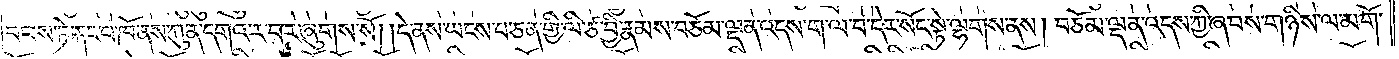བབས་ཏེ་རྐང་པ་ཁོ་ནས་ཀུན་དགའ་ར་བར་ཞུགས་སོ། །དེ་ནས་ཡངས་པ་ཅན་གྱི་ལི་ཙ་བྱི་རྣམས་བཅོམ་ལྡན་འདས་ག་ལ་བ་དེར་སོང་སྟེ་ལྷགས་ནས། བཅོམ་ལྡན་འདས་ཀྱི་ཞབས་གཉིས་ལ་མགོ་
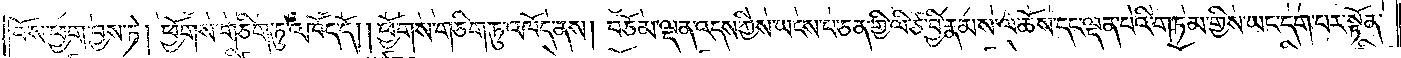བོས་ཕྱག་བྱས་ཏེ། ཕྱོགས་གཅིག་ཏུ་འཁོད་དོ། །ཕྱོགས་གཅིག་ཏུ་འཁོད་ནས། བཅོམ་ལྡན་འདས་ཀྱིས་ཡངས་པ་ཅན་གྱི་ལི་ཙ་བྱི་རྣམས་ལ་ཆོས་དང་ལྡན་པའི་གཏམ་གྱིས་ཡང་དག་པར་སྟོན་
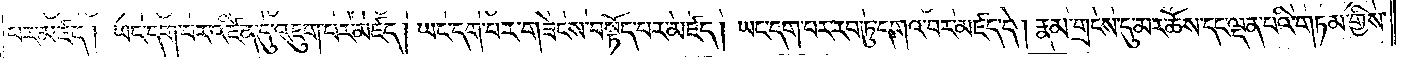པར་མཛད། ཡང་དག་པར་འཛིན་དུ་འཇུག་པར་མཛད། ཡང་དག་པར་གཟེངས་བསྟོད་པར་མཛད། ཡང་དག་པར་རབ་ཏུ་དགའ་བར་མཛད་དེ། རྣམ་གྲངས་དུ་མར་ཆོས་དང་ལྡན་པའི་གཏམ་གྱིས་
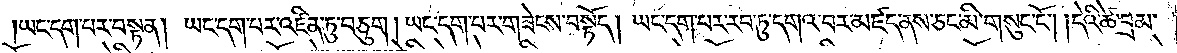ཡང་དག་པར་བསྟན། ཡང་དག་པར་འཛིན་ཏུ་བཅུག །ཡང་དག་པར་གཟེངས་བསྟོད། ཡང་དག་པར་རབ་ཏུ་དགའ་བར་མཛད་ནས་ཅང་མི་གསུང་ངོ༌། །དེའི་ཚེ་བྲམ་
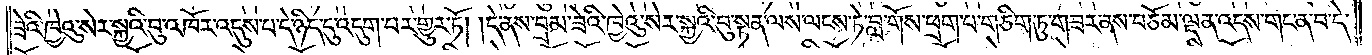ཟེའི་ཁྱེའུ་སེར་སྐྱའི་བུ་འཁོར་འདུས་པ་དེ་ཉིད་དུ་འདུག་པར་གྱུར་ཏོ། །དེ་ནས་བྲམ་ཟེའི་ཁྱེའུ་སེར་སྐྱའི་བུ་སྟན་ལས་ལངས་ཏེ་བླ་གོས་ཕྲག་པ་གཅིག་ཏུ་གཟར་ནས་བཅོམ་ལྡན་འདས་གང་ན་བ་དེ་
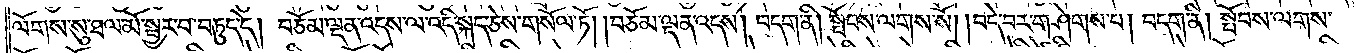ལོགས་སུ་ཐལ་མོ་སྦྱར་བ་བཏུད་དེ། བཅོམ་ལྡན་འདས་ལ་འདི་སྐད་ཅེས་གསོལ་ཏོ། །བཅོམ་ལྡན་འདས། བདག་ནི། སྤོབས་ལགས་སོ། །བདེ་བར་གཤེགས་པ། བདག་ནི། སྤོབས་ལགས་
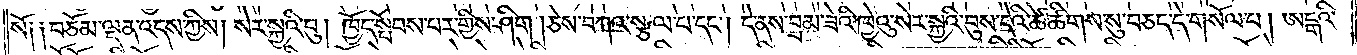སོ༑ ༑བཅོམ་ལྡན་འདས་ཀྱིས། སེར་སྐྱའི་བུ། ཁྱོད་སྤོབས་པར་གྱིས་ཤིག །ཅེས་བཀའ་སྩལ་པ་དང༌། དེ་ནས་བྲམ་ཟེའི་ཁྱེའུ་སེར་སྐྱའི་བུས་དེའི་ཚེ་ཚིགས་སུ་བཅད་དེ་གསོལ་པ། ཨངྒའི་
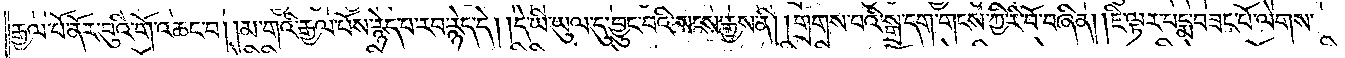རྒྱལ་པོ་ནོར་བུའི་གོ་འཆང་བ། །མ་གའི་རྒྱལ་པོས་རྙེད་པ་རབ་རྙེད་དེ། །དེ་ཡི་ཡུལ་དུ་བྱུང་བའི་སངས་རྒྱས་ནི། །གྲགས་པའི་སྒྲ་དག་གངས་ཀྱི་རི་བོ་བཞིན། །ཇི་ལྟར་པདྨ་བཟང་པོ་ལེགས་
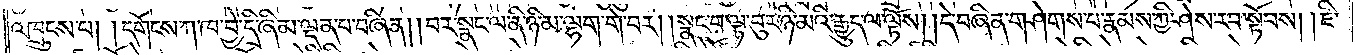འཁྲུངས་པ། །དགོངས་ཀ་ཁ་བྱེ་དྲི་ཞིམ་ལྡན་པ་བཞིན། །བར་སྣང་ལ་ནི་ཉི་མ་ལྷག་གེ་བར། །སྣང་བ་ལྟ་བུར་ཉི་མའི་རྒྱུད་ལ་ལྟོས། །དེ་བཞིན་གཤེགས་པ་རྣམས་ཀྱི་ཤེས་རབ་སྟོབས། །ཇི་
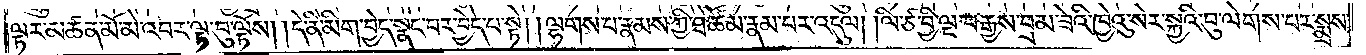ལྟར་མཚན་མོ་མེ་འབར་ལྟ་བུ་ལྟོས། །དེ་ནི་མིག་བྱེད་སྣང་བར་བྱེད་པ་སྟེ། ལྷགས་པ་རྣམས་ཀྱི་ཐེ་ཚོམ་རྣམ་པར་འདུལ། །ལེ་ཙ་བྱི་ལྔ་བརྒྱས་བྲམ་ཟེའི་ཁྱེའུ་སེར་སྐྱའི་བུ་ལེགས་པར་སྨྲས་
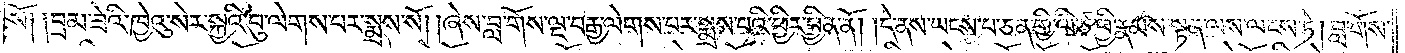སོ༑ ༑བྲམ་ཟེའི་ཁྱེའུ་སེར་སྐྱའི་བུ་ལེགས་པར་སྨྲས་སོ། །ཞེས་བླ་གོས་ལྔ་བརྒྱ་ལེགས་པར་སྨྲས་པའི་ཕྱིར་བྱིན་ནོ། །དེ་ནས་ཡངས་པ་ཅན་གྱི་ལི་ཙ་བྱི་རྣམས་སྟན་ལས་ལངས་ཏེ། བླ་གོས་
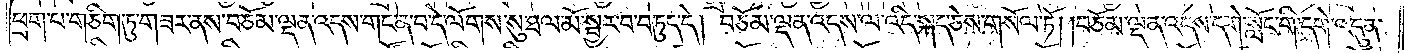ཕྲག་པ་གཅིག་ཏུ་གཟར་ནས་བཅོམ་ལྡན་འདས་གང་ན་བ་དེ་ལོགས་སུ་ཐལ་མོ་སྦྱར་བ་བཏུད་དེ། བཅོམ་ལྡན་འདས་ལ་འདི་སྐད་ཅེས་གསོལ་ཏོ། །བཅོམ་ལྡན་འདས་དགེ་སློང་གི་དགེ་འདུན་
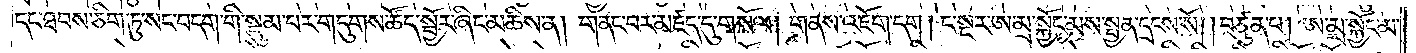དང་ཐབས་ཅིག་ཏུ་སང་བདག་གི་སྡུམ་པར་གདུགས་ཚོད་སྦྱོར་ཞིང་མཆིས་ན། གནང་བར་མཛད་དུ་གསོལ། གནས་འཇོག་དག །ང་སྔར་ཨ་མྲ་སྐྱོང་མས་སྤྱན་དྲངས་སོ། །བཙུན་པ། ཨ་མྲ་སྐྱོང་མ་
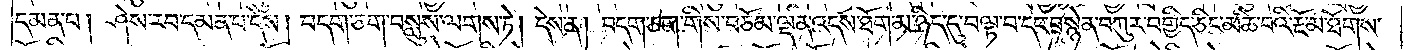དམན་པ། ཤེས་རབ་དམན་པ་དེས། བདག་ཅག་བསླུས་ལགས་ཏེ། དེས་ན། བདག་ཅག་གིས་བཅོམ་ལྡན་འདས་ཐོག་མ་ཉིད་དུ་བལྟ་བ་དང་བསྙེན་བཀུར་བགྱིད་ཅིང་མཆི་བའི་རྔོ་མ་ཐོགས་
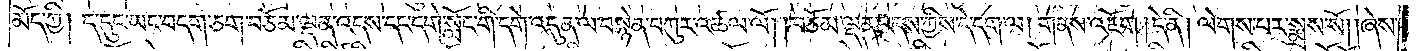མོད་ཀྱི། ད་དུང་ཡང་བདག་ཅག་བཅོམ་ལྡན་འདས་དང་དགེ་སློང་གི་དག་འདུན་ལ་བསྙེན་བཀུར་འཚལ་ལོ། །བཅོམ་ལྡན་འདས་ཀྱིས་དེ་དག་ལ་གནས་འཇོག །དེ་ནི། ལེགས་པར་སྨྲས་སོ། །ཞེས་
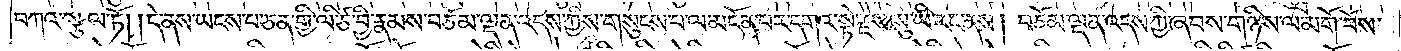བཀའ་སྩལ་ཏོ། །དེ་ནས་ཡངས་པ་ཅན་གྱི་ལི་ཙ་བྱི་རྣམས་བཅོམ་ལྡན་འདས་ཀྱིས་གསུངས་པ་ལ་མངོན་པར་དགའ་སྟེ་རྗེས་སུ་ཡི་རང་ནས། བཅོམ་ལྡན་འདས་ཀྱིས་ཞབས་གཉིས་ལ་མགོ་བོས་
